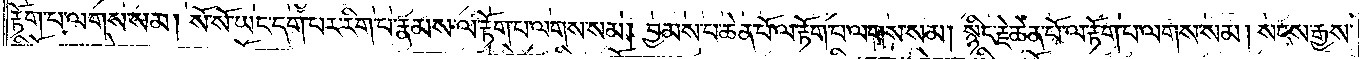རྟོག་པ་ལགས་སམ། སོ་སོ་ཡང་དག་པར་རིག་པ་རྣམས་ལ་རྟོག་པ་ལགས་སམ། བྱམས་པ་ཆེན་པོ་ལ་རྟོག་པ་ལགས་སམ། སྙིང་རྗེ་ཆེན་པོ་ལ་རྟོག་པ་ལགས་སམ། སངས་རྒྱས་
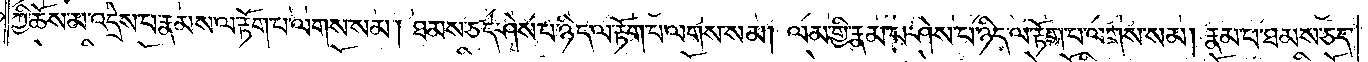ཀྱི་ཆོས་མ་འདྲེས་པ་རྣམས་ལ་རྟོག་པ་ལགས་སམ། ཐམས་ཅད་ཤེས་པ་ཉིད་ལ་རྟོག་པ་ལགས་སམ། ལམ་གྱི་རྣམ་པ་ཤེས་པ་ཉིད་ལ་རྟོག་པ་ལགས་སམ། རྣམ་པ་ཐམས་ཅད་
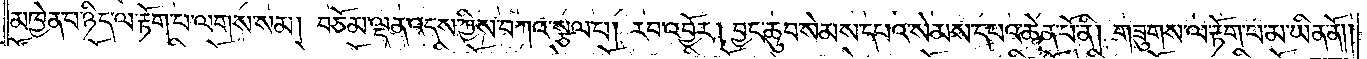མཁྱེན་པ་ཉིད་ལ་རྟོག་པ་ལགས་སམ། བཅོམ་ལྡན་འདས་ཀྱིས་བཀའ་སྩལ་པ། རབ་འབྱོར། བྱང་ཆུབ་སེམས་དཔའ་སེམས་དཔའ་ཆེན་པོ་ནི། གཟུགས་ལ་རྟོག་པ་མ་ཡིན་ནོ༎
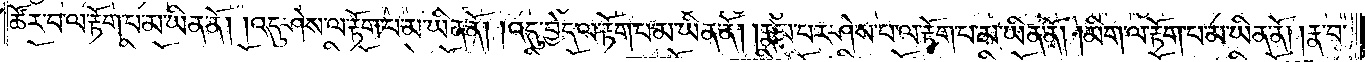ཚོར་བ་ལ་རྟོག་པ་མ་ཡིན་ནོ། །འདུ་ཤེས་ལ་རྟོག་པ་མ་ཡིན་ནོ། །འདུ་བྱེད་ལ་རྟོག་པ་མ་ཡིན་ནོ། །རྣམ་པར་ཤེས་པ་ལ་རྟོག་པ་མ་ཡིན་ནོ། །མིག་ལ་རྟོག་པ་མ་ཡིན་ནོ། །རྣ་བ་
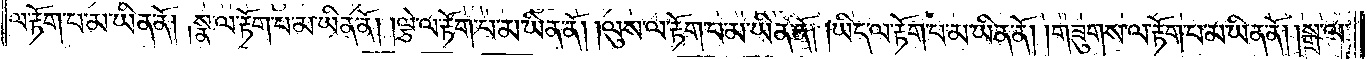ལ་རྟོག་པ་མ་ཡིན་ནོ། །སྣ་ལ་རྟོག་པ་མ་ཡིན་ནོ། །ལྕེ་ལ་རྟོག་པ་མ་ཡིན་ནོ། །ལུས་ལ་རྟོག་པ་མ་ཡིན་ནོ། །ཡིད་ལ་རྟོག་པ་མ་ཡིན་ནོ། །གཟུགས་ལ་རྟོག་པ་མ་ཡིན་ནོ། །སྒྲ་ལ་
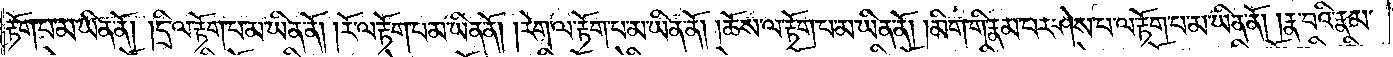རྟོག་པ་མ་ཡིན་ནོ། །དྲི་ལ་རྟོག་པ་མ་ཡིན་ནོ། །རོ་ལ་རྟོག་པ་མ་ཡིན་ནོ། །རེག་ལ་རྟོག་པ་མ་ཡིན་ནོ། །ཆོས་ལ་རྟོག་པ་མ་ཡིན་ནོ། །མིག་གི་རྣམ་པར་ཤེས་པ་ལ་རྟོག་པ་མ་ཡིན་ནོ། །རྣ་བའི་རྣམ་
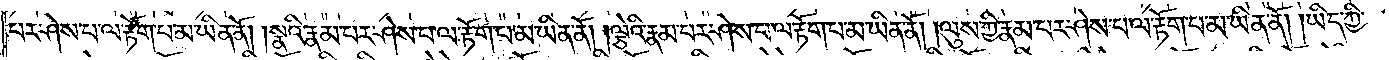པར་ཤེས་པ་ལ་རྟོག་པ་མ་ཡིན་ནོ། །སྣའི་རྣམ་པར་ཤེས་པ་ལ་རྟོག་པ་མ་ཡིན་ནོ། །ལྕེའི་རྣམ་པར་ཤེས་པ་ལ་རྟོག་པ་མ་ཡིན་ནོ། །ལུས་ཀྱི་རྣམ་པར་ཤེས་པ་ལ་རྟོག་པ་མ་ཡིན་ནོ། །ཡིད་ཀྱི་
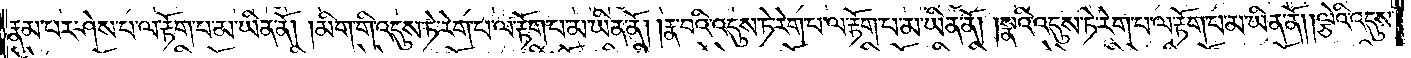རྣམ་པར་ཤེས་པ་ལ་རྟོག་པ་མ་ཡིན་ནོ། །མིག་གི་འདུས་ཏེ་རེག་པ་ལ་རྟོག་པ་མ་ཡིན་ནོ། །རྣ་བའི་འདུས་ཏེ་རེག་པ་ལ་རྟོག་པ་མ་ཡིན་ནོ། །སྣའི་འདུས་ཏེ་རེག་པ་ལ་རྟོག་པ་མ་ཡིན་ནོ། །ལྕེའི་འདུས་
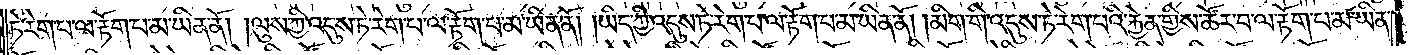ཏེ་རེག་པ་ལ་རྟོག་པ་མ་ཡིན་ནོ། །ལུས་ཀྱི་འདུས་ཏེ་རེག་པ་ལ་རྟོག་པ་མ་ཡིན་ནོ། །ཡིད་ཀྱི་འདུས་ཏེ་རེག་པ་ལ་རྟོག་པ་མ་ཡིན་ནོ། །མིག་གི་འདུས་ཏེ་རེག་པའི་རྐྱེན་གྱིས་ཚོར་བ་ལ་རྟོག་པ་མ་ཡིན་
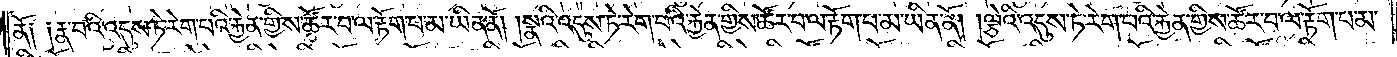ནོ༑ ༑རྣ་བའི་འདུས་ཏེ་རེག་པའི་རྐྱེན་གྱིས་ཚོར་བ་ལ་རྟོག་པ་མ་ཡིན་ནོ། །སྣའི་འདུས་ཏེ་རེག་པའི་རྐྱེན་གྱིས་ཚོར་བ་ལ་རྟོག་པ་མ་ཡིན་ནོ། །ལྕེའི་འདུས་ཏེ་རེག་པའི་རྐྱེན་གྱིས་ཚོར་བ་ལ་རྟོག་པ་མ་
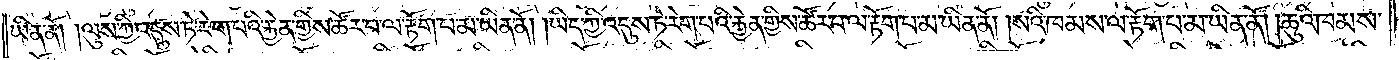ཡིན་ནོ། །ལུས་ཀྱི་འདུས་ཏེ་རེག་པའི་རྐྱེན་གྱིས་ཚོར་བ་ལ་རྟོག་པ་མ་ཡིན་ནོ། །ཡིད་ཀྱི་འདུས་ཏེ་རེག་པའི་རྐྱེན་གྱིས་ཚོར་བ་ལ་རྟོག་པ་མ་ཡིན་ནོ། །སའི་ཁམས་ལ་རྟོག་པ་མ་ཡིན་ནོ། །ཆུའི་ཁམས་
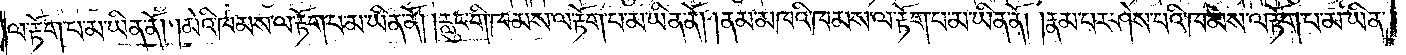ལ་རྟོག་པ་མ་ཡིན་ནོ། །མེའི་ཁམས་ལ་རྟོག་པ་མ་ཡིན་ནོ། །རླུང་གི་ཁམས་ལ་རྟོག་པ་མ་ཡིན་ནོ། །ནམ་མཁའི་ཁམས་ལ་རྟོག་པ་མ་ཡིན་ནོ། །རྣམ་པར་ཤེས་པའི་ཁམས་ལ་རྟོག་པ་མ་ཡིན་
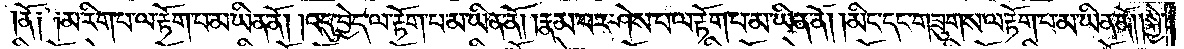ནོ༑ ༑མ་རིག་པ་ལ་རྟོག་པ་མ་ཡིན་ནོ། །འདུ་བྱེད་ལ་རྟོག་པ་མ་ཡིན་ནོ། །རྣམ་པར་ཤེས་པ་ལ་རྟོག་པ་མ་ཡིན་ནོ། །མིང་དང་གཟུགས་ལ་རྟོག་པ་མ་ཡིན་ནོ། །སྐྱེ་
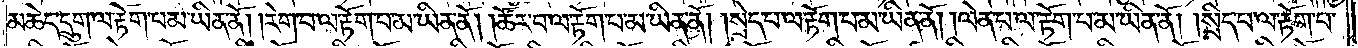མཆེད་དྲུག་ལ་རྟོག་པ་མ་ཡིན་ནོ། །རེག་པ་ལ་རྟོག་པ་མ་ཡིན་ནོ། །ཚོར་བ་ལ་རྟོག་པ་མ་ཡིན་ནོ། །སྲེད་པ་ལ་རྟོག་པ་མ་ཡིན་ནོ། །ལེན་པ་ལ་རྟོག་པ་མ་ཡིན་ནོ། །སྲིད་པ་ལ་རྟོག་པ་
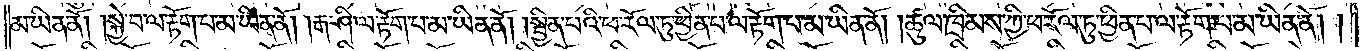མ་ཡིན་ནོ། །སྐྱེ་བ་ལ་རྟོག་པ་མ་ཡིན་ནོ། །རྒ་ཤི་ལ་རྟོག་པ་མ་ཡིན་ནོ། །སྦྱིན་པའི་ཕ་རོལ་ཏུ་ཕྱིན་པ་ལ་རྟོག་པ་མ་ཡིན་ནོ། །ཚུལ་ཁྲིམས་ཀྱི་ཕ་རོལ་ཏུ་ཕྱིན་པ་ལ་རྟོག་པ་མ་ཡིན་ནོ། །
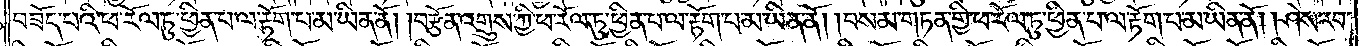བཟོད་པའི་ཕ་རོལ་ཏུ་ཕྱིན་པ་ལ་རྟོག་པ་མ་ཡིན་ནོ། །བརྩོན་འགྲུས་ཀྱི་ཕ་རོལ་ཏུ་ཕྱིན་པ་ལ་རྟོག་པ་མ་ཡིན་ནོ། །བསམ་གཏན་གྱི་ཕ་རོལ་ཏུ་ཕྱིན་པ་ལ་རྟོག་པ་མ་ཡིན་ནོ། །ཤེས་རབ་
